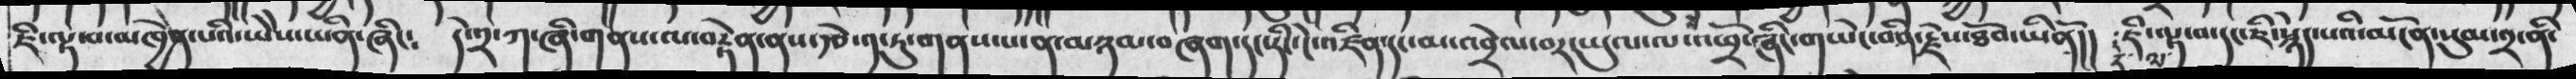ཇི་ལྟ་བ་མཁྱེན་པའི་ཡེེས་ཡིན་ཞིང༴  དེ་༢་ཀ་ཞི་གནས་ལ་བརྟེན་ནས་རྩེ་༡་ཏུ་གནས་པ་ན་མཉམ་བཞག་དང་ཏིང་ངེ་འཛིན་དང་མ་འབྲེལ་བར་ཡུལ་ལ་འཕྲོ་ཞིང་གཡེང་བ་ནི་རྗེས་ཐོབ་ཡིནོ།།།  དེ་ལ་ཇི་ལྟ་བ་དང་ཇི་སྙེད་པའི་མངོན་སུམ་༢་ནི་
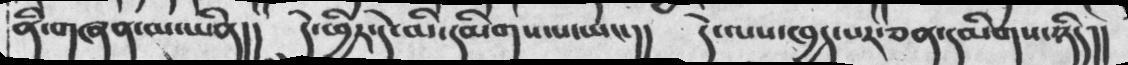ནི་གཞན་མ་ཡིན།།  དེ་ཕྱིར་དེ་མི་དམིགས་པ་ཡང་།།  དེ་ལས་ཁྱད་པར་ཅན་དམིགས་ཉིད།།
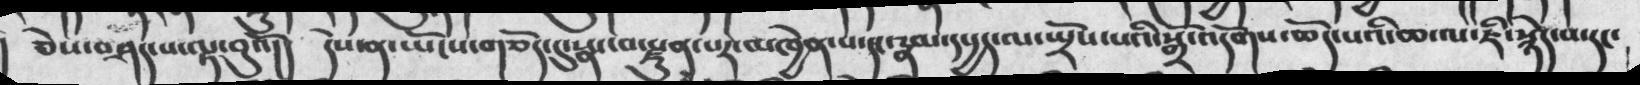ཅེས་བཤད་པ་ལྟ་བུའོ།།  དེས་ན་ཡོངས་གཅོད་དུ་སྣང་བ་རྫུན་པར་མཁྱེན་པ་དང་རྣམ་དཔྱད་ལ་སྤྲོས་པའི་སྒྲོ་འདོགས་ཆོད་པའི་ཆ་ལ་ཇི་སྙེད་པ་དང་
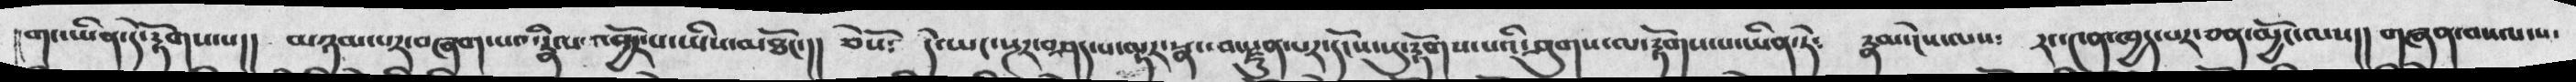གང་ཡིན་དོ་རྟོགས་པ།།   མཉམ་པར་བཞག་པའི་རྣམ་འབྱོར་པ་ཡིས་མཐོང་།།  ཅེསོ༴  དེ་ཡང་སྔར་བཤད་པ་ལྟར་སྣང་བ་རྫུན་པར་དངོས་སུ་རྟོགས་པའི་ཤུགས་ལ་རྟོགས་པ་ཡིན་ཏེ༴  རྣམ་ངེསད་ལས༴  རང་༤ན་ཁྱད་པར་ཅན་མྱོང་ལས།།  གཞན་བསལ་པ་
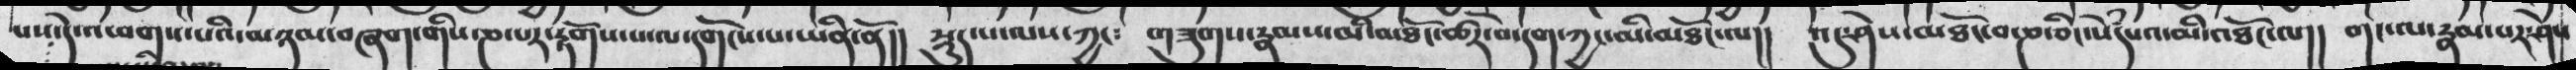པས་དེ་འཕགས་པའི་མཉམ་བཞག་གིས་ཎ་པར་རྟོགས་པ་ལ་དགོངས་པ་ཡིན་ནོ།།   སྡུད་པ་ལས་ཀྱང༴  གཟུགས་རྣམས་མི་མཐོང་ཚོར་བ་དག་ཀྱང་མི་མཐོང་ལ།།  འདུ་ཤེས་མཐོང་བ་ཎ་ཅིང་སེཾདཔའ་མི་མཐོང་ལ།།  གང་ལ་རྣམ་པར་ཤེས
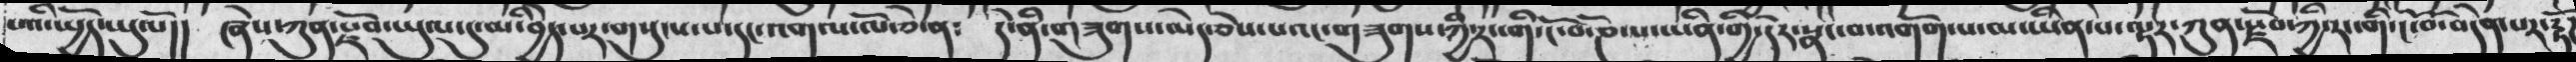པའི་སྤྱོད་ཡུལོ།།  ཞེས་ཀུན་རྫོབ་ཡུལ་དུ་མ་བྱེད་པར་གསུངས་པ་དང་འགལ་ལོ་ཅེ་ན༴  དེ་ནི་གཟུགས་མེད་ཅེས་པའང་གཟུགས་ཀྱི་རང་གི་ངོ་བོ་ཎ་པ་ཡིན་གྱི་དེར་སྣང་བ་འགོག་པ་མ་ཡིན་པ་ལྟར་ཀུན་རྫོབ་ཀྱི་རང་གི་ངོ་བོ་བདེན་པར་རྟོཌ
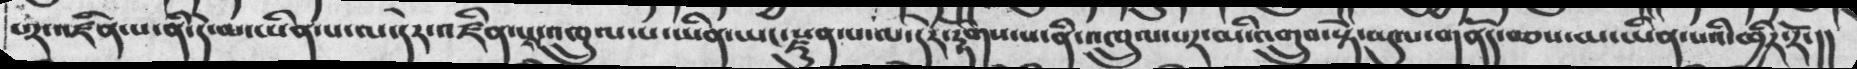པར་འཛིན་པ་ནི་དེ་ལ་ཡིན་པ་ལ་དེར་འཛིན་པས་འཁྲུལ་པ་ཡིན་ཡང་རྫུན་པ་ལ་དེར་རྟོགས་པ་ནི་འཁྲུལ་པར་མི་འགྲུབ་སྟེ་ཡུལ་གནོད་བཅས་མ་ཡིན་པའི་ཕྱིར་རོ་།།
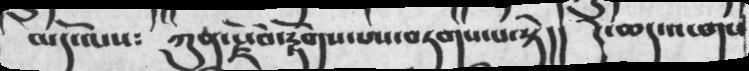མདོ་ལས༴  ཀུན་རྫོབ་རྟོགས་པས་བཏགས་པ་སྟེ།།  དེ་ཆད་འངགས
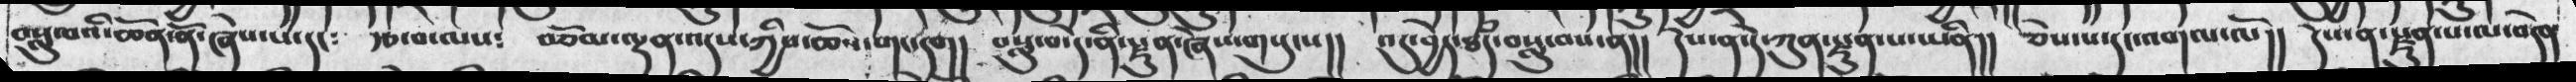བསླུ་བའི་ཆོན་ནོ་ཞེས་པ་དང༴  རྩ་བ་ལས༴  བཅོམ་ལྡན་འདས་ཀྱིས་ཆོས་གང་དག།  བསླུ་བ་དེ་ནི་རྫུན་ཞེས་གསུངས།།  འདུ་བྱེད་ཐཾད་བསླུ་བས་ན།།  དེས་ན་དེ་ཀུན་རྫུན་པ་ཡིན།།  ཅེས་པ་དང་འགལ་ལོ།།  དེས་ན་རྫུན་པ་ལ་བདེན
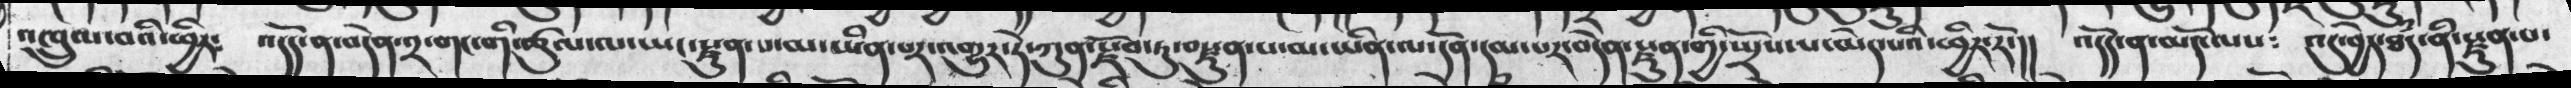འཁྲུལ་བའི་ཕྱིར༴  འདོད་ན་བདེན་༢་གང་གི་ཚུལ་ལ་ཡང་རྫུན་པ་མ་ཡིན་པར་འགྱུར་དེ་ཀུན་རྫོབ་ཏུ་བརྫུན་པ་མ་ཡིན་ལ་དོན་དམ་པར་བདེན་རྫུན་གྱི་སྤྲོས་པ་མེད་པའི་ཕྱིར་རོ་།།   འདོད་ན་མདོ་ལས༴  འདུ་བྱེད་ཐཾད་ནི་རྫུན་པ་
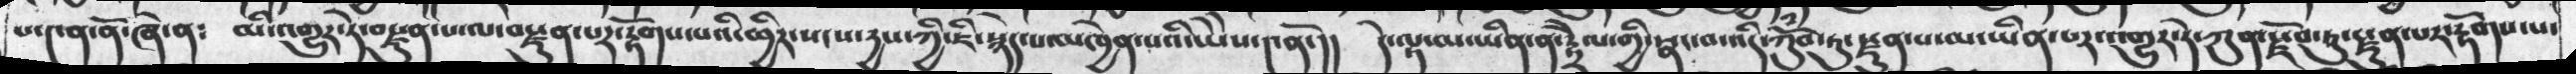པ་༤ན་ནོ་ཞེ་ན༴  མི་འགྱུར་དེ་བརྫུན་པ་ལ་བརྫུན་པར་རྟོགས་པའི་ཕྱིར་སངས་དྱས་ཀྱི་ཇི་སྙེད་པ་མཁྱེན་པའི་ཡེེས་༤ནོ།།   དེ་ལྟ་མ་ཡིན་ན་རྟྲེེལ་གྱི་སྣང་བ་འདི་ཀོུབ་ཏུ་རྫུན་པ་མ་ཡིན་པར་འགྱུར་དེ་ཀུན་རྫོབ་ཏུ་རྫུན་པར་རྟོགས་པ་
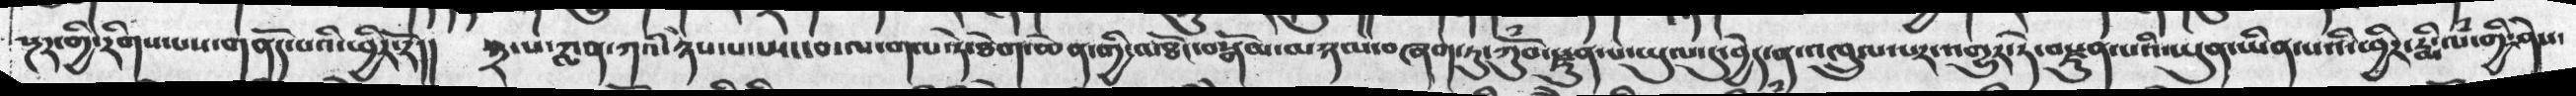སྔར་གྱི་རིགས་པས་གནོད་པའི་ཕྱིར་རོ།།   ༣་པ་ཀླན་ཀའི་ཉེས་པ་སྤང་བ་ལ་གལ་ཏེ་ཐེག་ཆེན་གྱི་མཐོང་བསྒོམ་མཉམ་བཞག་ཏུ་ཀོུྃབ་རྫུན་པ་ཡུལ་དུ་བྱེད་ན་འཁྲུལ་པར་འགྱུར་ཏེ་བརྫུན་པའི་ཡུན་ཡིན་པའི་ཕྱིར་རྨི་ལཾ་གྱི་ཤེས་
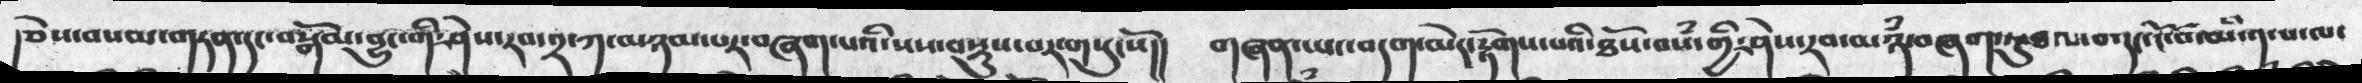།ཅེས་བསམ་གཏན་དང་བསྒོམ་བྱུང་གི་ཤེས་རབ་༢་ཀ་མཉམ་པར་བཞག་པའི་སས་བསྡུས་པར་གསུངསོ།།  གཞན་ཡང་བདག་མེད་རྟོགས་པའི་ཐོས་བསཾ་གྱི་ཤེས་རབ་མཉཾ་བཞག་ཏུ་ཐལ་བ་དང་ངོ་བོ་མི་༡་པ་ལ་
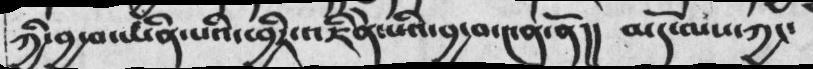ཀྱི་བྱ་བ་ཡིན་པའི་ཕྱིར་འཇིེན་པའི་བྱ་བ་༤ན་ནོ།།  མདོ་ལས་ཀྱང་
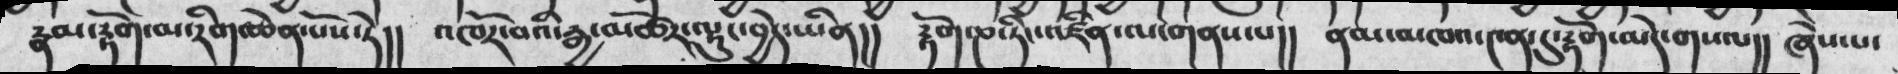རྣམ་རྟོག་མ་རིག་ཆེན་པོས་ཏེ།།  འཁོར་བའི་རྒྱ་མཚོར་ལྷུང་བྱེད་ཡིན།།  རྟོག་ཎ་ཏིང་འཇིན་ལ་གནས་པ།།   ནམ་མཁའ་༤ན་དུ་རྟོག་མེད་གསལ།།  ཞེས་པ་
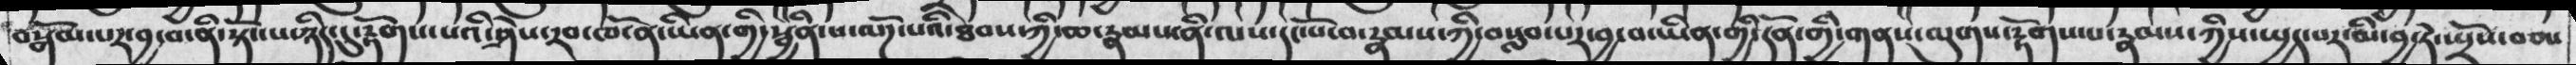བསྒོམ་པར་བྱ་བ་ནི་སྟོང་པ་ཉིད་དུ་རྟོགས་པའི་ཤེས་རབ་ཁོ་ན་ཡིན་གྱི་སྦྱིན་པ་ལོཌ་པའི་ཐབས་ཀྱི་ཆ་རྣམས་ནི་ལས་དང་པོ་བ་རྣམས་ཀྱི་བསླབ་པར་བྱ་བ་ཡིན་གྱི་དོན་གྱི་གནས་ལུགས་རྟོགས་པ་རྣམས་ཀྱིས་ཡྱད་པར་མི་བྱ་ཏེ་ཡྲོས་བཅས
